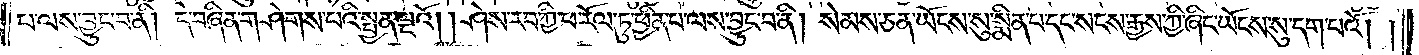པ་ལས་བྱུང་བ་ནི། དེ་བཞིན་གཤེགས་པའི་སྤྱན་ལྔའོ། །ཤེས་རབ་ཀྱི་ཕ་རོལ་ཏུ་ཕྱིན་པ་ལས་བྱུང་བ་ནི། སེམས་ཅན་ཡོངས་སུ་སྨིན་པ་དང་སངས་རྒྱས་ཀྱི་ཞིང་ཡོངས་སུ་དག་པའོ། །
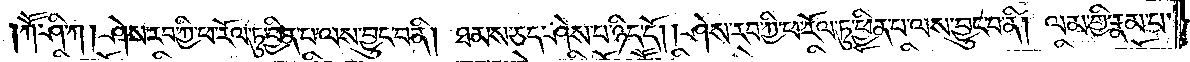ཀཽ་ཤི་ཀ། ཤེས་རབ་ཀྱི་ཕ་རོལ་ཏུ་ཕྱིན་པ་ལས་བྱུང་བ་ནི། ཐམས་ཅད་ཤེས་པ་ཉིད་དོ། །ཤེས་རབ་ཀྱི་ཕ་རོལ་ཏུ་ཕྱིན་པ་ལས་བྱུང་བ་ནི། ལམ་གྱི་རྣམ་པ་
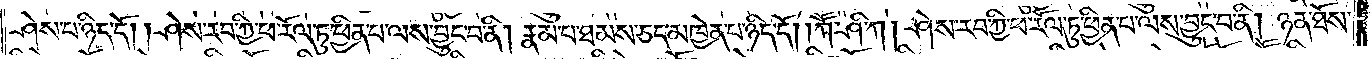ཤེས་པ་ཉིད་དོ། །ཤེས་རབ་ཀྱི་ཕ་རོལ་ཏུ་ཕྱིན་པ་ལས་བྱུང་བ་ནི། རྣམ་པ་ཐམས་ཅད་མཁྱེན་པ་ཉིད་དོ། །ཀཽ་ཤི་ཀ། ཤེས་རབ་ཀྱི་ཕ་རོལ་ཏུ་ཕྱིན་པ་ལས་བྱུང་བ་ནི། ཉན་ཐོས་
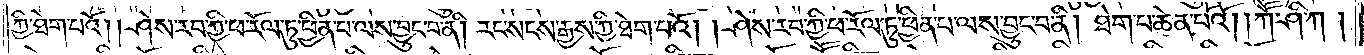ཀྱི་ཐེག་པའོ། །ཤེས་རབ་ཀྱི་ཕ་རོལ་ཏུ་ཕྱིན་པ་ལས་བྱུང་བ་ནི། རང་སངས་རྒྱས་ཀྱི་ཐེག་པའོ། །ཤེས་རབ་ཀྱི་ཕ་རོལ་ཏུ་ཕྱིན་པ་ལས་བྱུང་བ་ནི། ཐེག་པ་ཆེན་པོའོ། །ཀཽ་ཤི་ཀ།
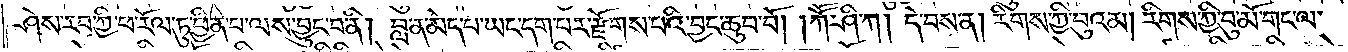ཤེས་རབ་ཀྱི་ཕ་རོལ་ཏུ་ཕྱིན་པ་ལས་བྱུང་བ་ནི། བླ་ན་མེད་པ་ཡང་དག་པར་རྫོགས་པའི་བྱང་ཆུབ་བོ། །ཀཽ་ཤི་ཀ། དེ་བས་ན། རིགས་ཀྱི་བུའམ། རིགས་ཀྱི་བུ་མོ་གང་ལ་
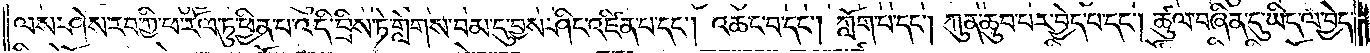ལས་ཤེས་རབ་ཀྱི་ཕ་རོལ་ཏུ་ཕྱིན་པ་འདི་བྲིས་ཏེ་གླེགས་བམ་དུ་བྱས་ཤིང་འཛིན་པ་དང༌། འཆང་བ་དང༌། ཀློག་པ་དང༌། ཀུན་ཆུབ་པར་བྱེད་པ་དང༌། ཚུལ་བཞིན་དུ་ཡིད་ལ་བྱེད་
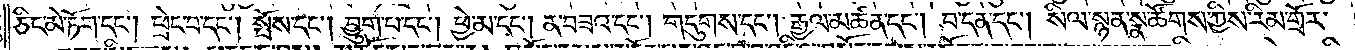ཅིང་མེ་ཏོག་དང༌། ཕྲེང་བ་དང༌། སྤོས་དང༌། བྱུག་པ་དང༌། ཕྱེ་མ་དང༌། ན་བཟའ་དང༌། གདུགས་དང༌། རྒྱལ་མཚན་དང༌། བ་དན་དང༌། སིལ་སྙན་སྣ་ཚོགས་ཀྱིས་རིམ་གྲོར་
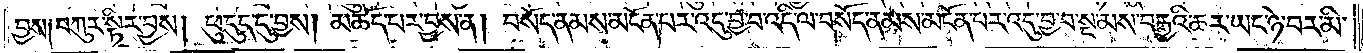བྱས། བཀུར་སྟེར་བྱས། ཕུ་དུད་དུ་བྱས། མཆོད་པར་བྱས་ན། བསོད་ནམས་མངོན་པར་འདུ་བྱ་བ་འདི་ལ་བསོད་ནམས་མངོན་པར་འདུ་བྱ་བ་སྔ་མས་བརྒྱའི་ཆར་ཡང་ཉེ་བར་མི་
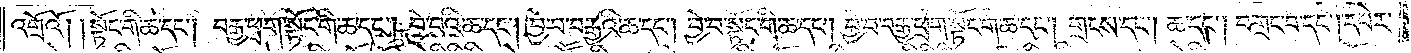འགྲོའོ། །སྟོང་གི་ཆ་དང༌། བརྒྱ་ཕྲག་སྟོང་གི་ཆ་དང༌། བྱེ་བའི་ཆ་དང༌། བྱེ་བ་བརྒྱའི་ཆ་དང༌། བྱེ་བ་སྟོང་གི་ཆ་དང༌། བྱེ་བ་བརྒྱ་ཕྲག་སྟོང་གི་ཆ་དང༌། གྲངས་དང༌། ཆ་དང༌། བགྲང་བ་དང༌། དཔེར་
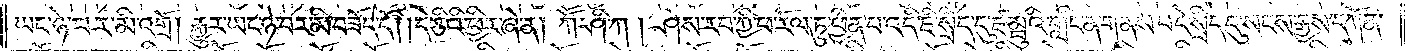ཡང་ཉེ་བར་མི་འགྲོ། རྒྱུར་ཡང་ཉེ་བར་མི་བཟོད་དོ། །དེ་ཅིའི་ཕྱིར་ཞེ་ན། ཀཽ་ཤི་ཀ། ཤེས་རབ་ཀྱི་ཕ་རོལ་ཏུ་ཕྱིན་པ་འདི་ཇི་སྲིད་དུ་ཛམྦུའི་གླིང་ན་གནས་པ་དེ་སྲིད་དུ་སངས་རྒྱས་དཀོན་
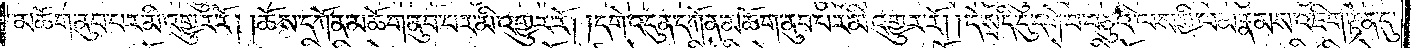མཆོག་ནུབ་པར་མི་འགྱུར་རོ། །ཆོས་དཀོན་མཆོག་ནུབ་པར་མི་འགྱུར་རོ། །དགེ་འདུན་དཀོན་མཆོག་ནུབ་པར་མི་འགྱུར་རོ། །དེ་སྲིད་དུ་དགེ་བ་བཅུའི་ལས་ཀྱི་ལམ་རྣམས་འཇིག་རྟེན་དུ་
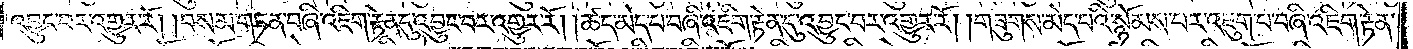འབྱུང་བར་འགྱུར་རོ། །བསམ་གཏན་བཞི་འཇིག་རྟེན་དུ་འབྱུང་བར་འགྱུར་རོ། །ཚད་མེད་པ་བཞི་འཇིག་རྟེན་དུ་འབྱུང་བར་འགྱུར་རོ། ། གཟུགས་མེད་པའི་སྙོམས་པར་འཇུག་པ་བཞི་འཇིག་རྟེན་
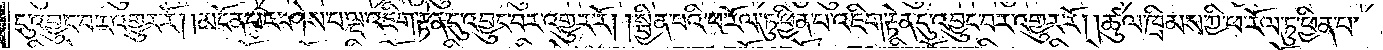དུ་འགྱུར་བར་འགྱུར་རོ། །མངོན་པར་ཤེས་པ་ལྔ་འཇིག་རྟེན་དུ་འབྱུང་བར་འགྱུར་རོ། །སྦྱིན་པའི་ཕ་རོལ་ཏུ་ཕྱིན་པ་འཇིག་རྟེན་དུ་འབྱུང་བར་འགྱུར་རོ། །ཚུལ་ཁྲིམས་ཀྱི་ཕ་རོལ་ཏུ་ཕྱིན་པ་
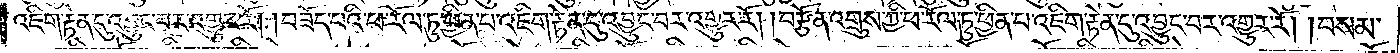འཇིག་རྟེན་དུ་འབྱུང་བར་འགྱུར་རོ། །བཟོད་པའི་ཕ་རོལ་ཏུ་ཕྱིན་པ་འཇིག་རྟེན་དུ་འབྱུང་བར་འགྱུར་རོ། །བརྩོན་འགྲུས་ཀྱི་ཕ་རོལ་ཏུ་ཕྱིན་པ་འཇིག་རྟེན་དུ་འབྱུང་བར་འགྱུར་རོ། །བསམ་
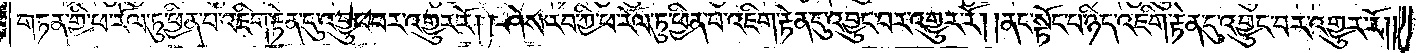གཏན་གྱི་ཕ་རོལ་ཏུ་ཕྱིན་པ་འཇིག་རྟེན་དུ་འབྱུང་བར་འགྱུར་རོ། །ཤེས་རབ་ཀྱི་ཕ་རོལ་ཏུ་ཕྱིན་པ་འཇིག་རྟེན་དུ་འབྱུང་བར་འགྱུར་རོ། །ནང་སྟོང་པ་ཉིད་འཇིག་རྟེན་དུ་འབྱུང་བར་འགྱུར་རོ། །
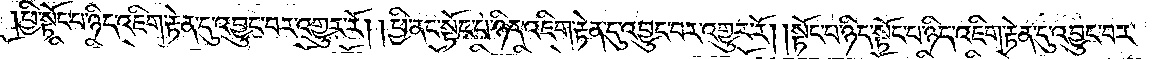ཕྱི་སྟོང་པ་ཉིད་འཇིག་རྟེན་དུ་འབྱུང་བར་འགྱུར་རོ། །ཕྱི་ནང་སྟོང་པ་ཉིད་འཇིག་རྟེན་དུ་འབྱུང་བར་འགྱུར་རོ། །སྟོང་པ་ཉིད་སྟོང་པ་ཉིད་འཇིག་རྟེན་དུ་འབྱུང་བར་
